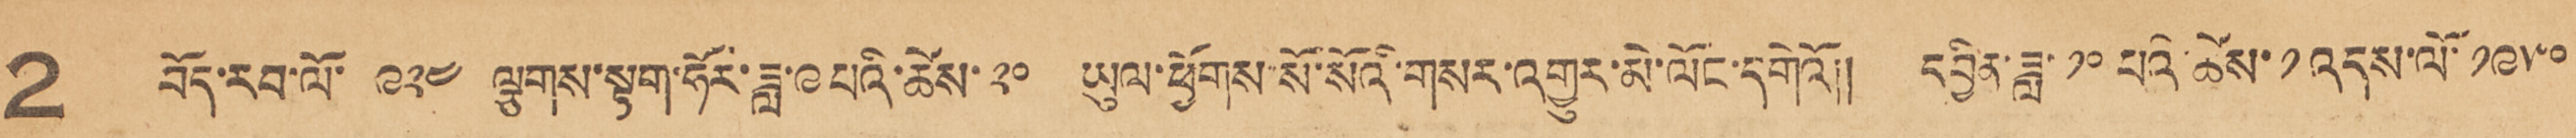2 བོད་རབ་ལོ་ ༩༢༤ ལྕགས་སྟག་ཧོར་ཟླ་ ༩ པའི་ཚེས་ ༢༠ ཡུལ་ཕྱོགས་སོ་སོའི་གསར་འགྱུར་མེ་ལོང་དགེའོ།། དབྱིན་ཟླ་ ༡༠ པའི་ཚེས་ ༡ འདས་ལོ་ ༡༩༥༠
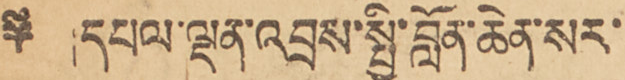༈ །དཔལ་ལྡན་འབྲས་སྤྱི་འབྲས་བློན་ཆེན་སར་
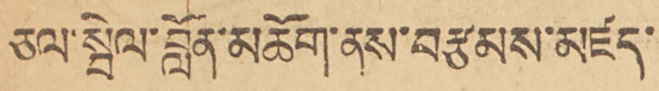ཅལ་སྦེལ་བློན་མཆོག་ནས་བརྩམས་མཛད་
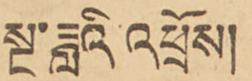སྔ་ཟླའི་འཕྲོས།
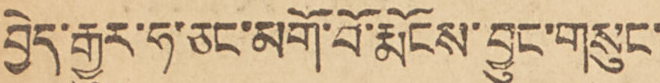བྱེད་རྒྱུར་ཧ་ཅང་མགོ་བོ་རྨོངས་བྱུང་གསུང་
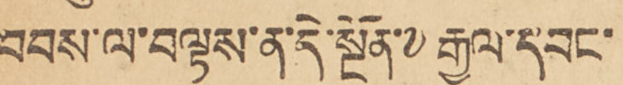བབས་ལ་བལྟས་ན་དེ་སྔོན་༸རྒྱལ་དབང་
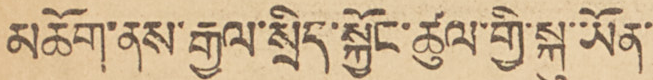མཆོག་ནས་རྒྱལ་སྲིད་སྐྱོང་ཚུལ་གྱི་སྐུ་ཡོན་
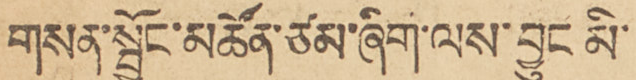གསན་སྦྱོང་མཚོན་ཙམ་ཞིག་ལས་བྱུང མི་
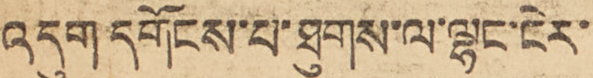འདུག་དགོངས་པ་ཐུགས་ལ་ལྷང་ངེར་
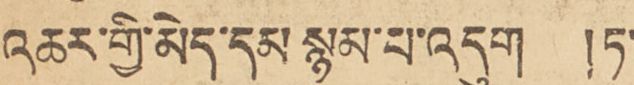འཆར་གྱི་མེད་དམ སྙམ་པ་འདུག །ཏ་
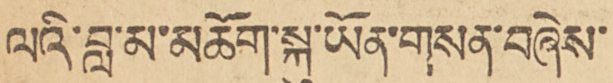ལའི་བླ་མ་མཆོག་སྐུ་ཡོན་གསན་བཞེས་
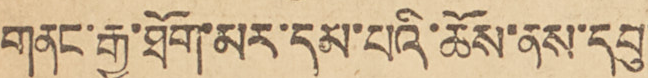གནང་རྒྱུ་ཐོག་མར་དམ་པའི་ཆོས་ནས་དབུ་
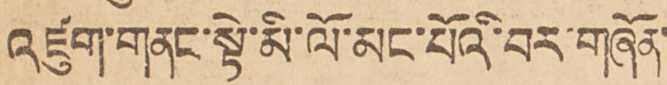འཛུག་གནང་སྟེ་མི་ལོ་མང་པོའི་བར་གཞོན་
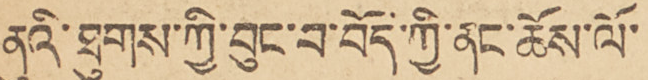ནུའི་ཐུགས་ཀྱི་བུང་བ་བོད་ཀྱི་ནང་ཆོས་ལོ་
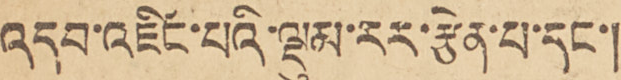འདབ་འཛིང་པའི་ལྡུམ་རར་རྩེན་པ་དང་།
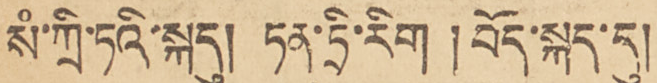སཾ་ཀྲི་ཏའི་སྐདུ། ཏན་ཏྲི་རིག །བོད་སྐད་དུ།
